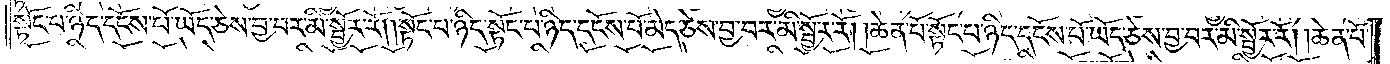སྟོང་པ་ཉིད་དངོས་པོ་ཡོད་ཅེས་བྱ་བར་མི་སྦྱོར་རོ། །སྟོང་པ་ཉིད་སྟོང་པ་ཉིད་དངོས་པོ་མེད་ཅེས་བྱ་བར་མི་སྦྱོར་རོ། །ཆེན་པོ་སྟོང་པ་ཉིད་དངོས་པོ་ཡོད་ཅེས་བྱ་བར་མི་སྦྱོར་རོ། །ཆེན་པོ་
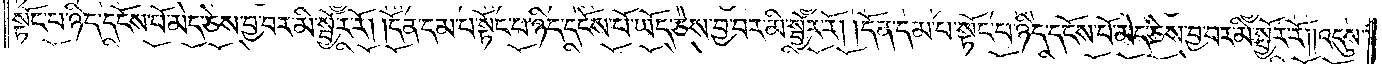སྟོང་པ་ཉིད་དངོས་པོ་མེད་ཅེས་བྱ་བར་མི་སྦྱོར་རོ། །དོན་དམ་པ་སྟོང་པ་ཉིད་དངོས་པོ་ཡོད་ཅེས་བྱ་བར་མི་སྦྱོར་རོ། །དོན་དམ་པ་སྟོང་པ་ཉིད་དངོས་པོ་མེད་ཅེས་བྱ་བར་མི་སྦྱོར་རོ། །འདུས་
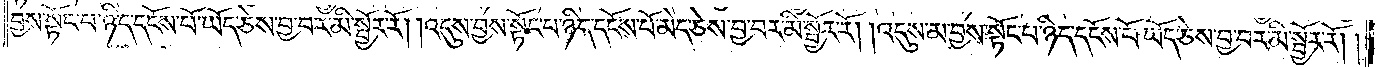བྱས་སྟོང་པ་ཉིད་དངོས་པོ་ཡོད་ཅེས་བྱ་བར་མི་སྦྱོར་རོ། །འདུས་བྱས་སྟོང་པ་ཉིད་དངོས་པོ་མེད་ཅེས་བྱ་བར་མི་སྦྱོར་རོ། །འདུས་མ་བྱས་སྟོང་པ་ཉིད་དངོས་པོ་ཡོད་ཅེས་བྱ་བར་མི་སྦྱོར་རོ། །
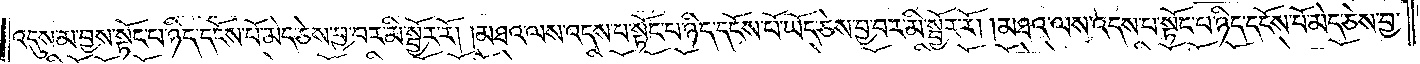འདུས་མ་བྱས་སྟོང་པ་ཉིད་དངོས་པོ་མེད་ཅེས་བྱ་བར་མི་སྦྱོར་རོ། །མཐའ་ལས་འདས་པ་སྟོང་པ་ཉིད་དངོས་པོ་ཡོད་ཅེས་བྱ་བར་མི་སྦྱོར་རོ། །མཐའ་ལས་འདས་པ་སྟོང་པ་ཉིད་དངོས་པོ་མེད་ཅེས་བྱ་
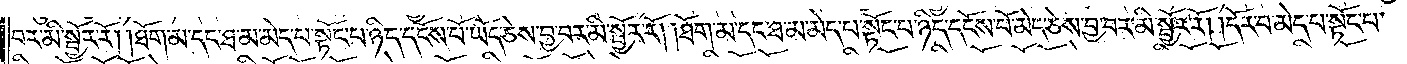བར་མི་སྦྱོར་རོ། །ཐོག་མ་དང་ཐ་མ་མེད་པ་སྟོང་པ་ཉིད་དངོས་པོ་ཡོད་ཅེས་བྱ་བར་མི་སྦྱོར་རོ། །ཐོག་མ་དང་ཐ་མ་མེད་པ་སྟོང་པ་ཉིད་དངོས་པོ་མེད་ཅེས་བྱ་བར་མི་སྦྱོར་རོ། །དོར་བ་མེད་པ་སྟོང་པ་
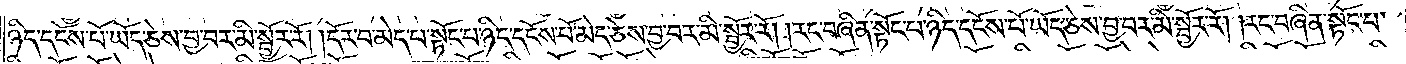ཉིད་དངོས་པོ་ཡོད་ཅེས་བྱ་བར་མི་སྦྱོར་རོ། །དོར་བ་མེད་པ་སྟོང་པ་ཉིད་དངོས་པོ་མེད་ཅེས་བྱ་བར་མི་སྦྱོར་རོ། །རང་བཞིན་སྟོང་པ་ཉིད་དངོས་པོ་ཡོད་ཅེས་བྱ་བར་མི་སྦྱོར་རོ། །རང་བཞིན་སྟོང་པ་
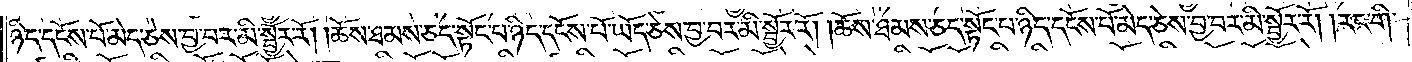ཉིད་དངོས་པོ་མེད་ཅེས་བྱ་བར་མི་སྦྱོར་རོ། །ཆོས་ཐམས་ཅད་སྟོང་པ་ཉིད་དངོས་པོ་ཡོད་ཅེས་བྱ་བར་མི་སྦྱོར་རོ། །ཆོས་ཐམས་ཅད་སྟོང་པ་ཉིད་དངོས་པོ་མེད་ཅེས་བྱ་བར་མི་སྦྱོར་རོ། །རང་གི་
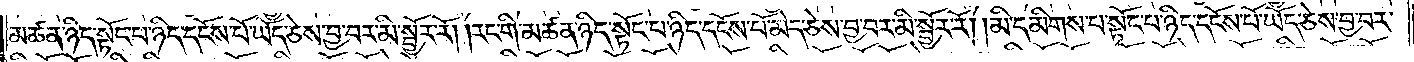མཚན་ཉིད་སྟོང་པ་ཉིད་དངོས་པོ་ཡོད་ཅེས་བྱ་བར་མི་སྦྱོར་རོ། །རང་གི་མཚན་ཉིད་སྟོང་པ་ཉིད་དངོས་པོ་མེད་ཅེས་བྱ་བར་མི་སྦྱོར་རོ། །མི་དམིགས་པ་སྟོང་པ་ཉིད་དངོས་པོ་ཡོད་ཅེས་བྱ་བར་
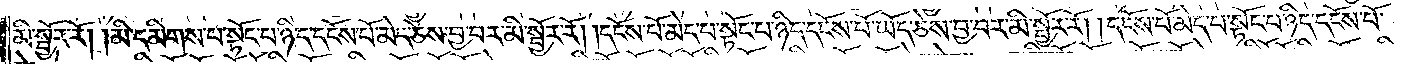མི་སྦྱོར་རོ། །མི་དམིགས་པ་སྟོང་པ་ཉིད་དངོས་པོ་མེད་ཅེས་བྱ་བར་མི་སྦྱོར་རོ། །དངོས་པོ་མེད་པ་སྟོང་པ་ཉིད་དངོས་པོ་ཡོད་ཅེས་བྱ་བར་མི་སྦྱོར་རོ། །དངོས་པོ་མེད་པ་སྟོང་པ་ཉིད་དངོས་པོ་
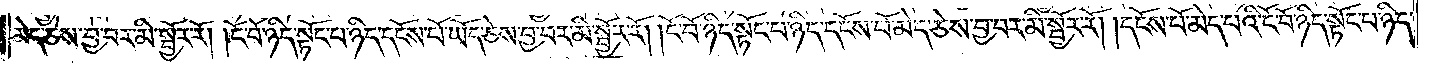མེད་ཅེས་བྱ་བར་མི་སྦྱོར་རོ། །ངོ་བོ་ཉིད་སྟོང་པ་ཉིད་དངོས་པོ་ཡོད་ཅེས་བྱ་བར་མི་སྦྱོར་རོ། །ངོ་བོ་ཉིད་སྟོང་པ་ཉིད་དངོས་པོ་མེད་ཅེས་བྱ་བར་མི་སྦྱོར་རོ། །དངོས་པོ་མེད་པའི་ངོ་བོ་ཉིད་སྟོང་པ་ཉིད་
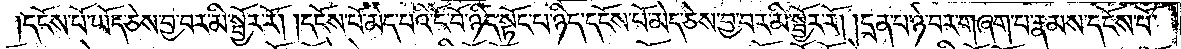དངོས་པོ་ཡོད་ཅེས་བྱ་བར་མི་སྦྱོར་རོ། །དངོས་པོ་མེད་པའི་ངོ་བོ་ཉིད་སྟོང་པ་ཉིད་དངོས་པོ་མེད་ཅེས་བྱ་བར་མི་སྦྱོར་རོ། །དྲན་པ་ཉེ་བར་གཞག་པ་རྣམས་དངོས་པོ་
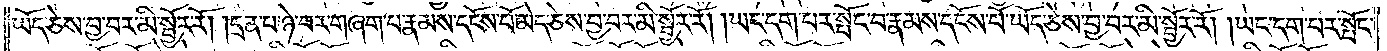ཡོད་ཅེས་བྱ་བར་མི་སྦྱོར་རོ། །དྲན་པ་ཉེ་བར་གཞག་པ་རྣམས་དངོས་པོ་མེད་ཅེས་བྱ་བར་མི་སྦྱོར་རོ། །ཡང་དག་པར་སྤོང་བ་རྣམས་དངོས་པོ་ཡོད་ཅེས་བྱ་བར་མི་སྦྱོར་རོ། །ཡང་དག་པར་སྤོང་
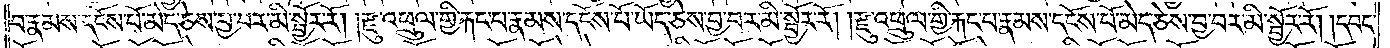བ་རྣམས་དངོས་པོ་མེད་ཅེས་བྱ་བར་མི་སྦྱོར་རོ། །རྫུ་འཕྲུལ་གྱི་རྐང་པ་རྣམས་དངོས་པོ་ཡོད་ཅེས་བྱ་བར་མི་སྦྱོར་རོ། །རྫུ་འཕྲུལ་གྱི་རྐང་པ་རྣམས་དངོས་པོ་མེད་ཅེས་བྱ་བར་མི་སྦྱོར་རོ། །དབང་
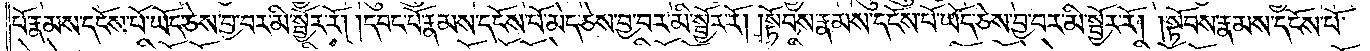པོ་རྣམས་དངོས་པོ་ཡོད་ཅེས་བྱ་བར་མི་སྦྱོར་རོ། །དབང་པོ་རྣམས་དངོས་པོ་མེད་ཅེས་བྱ་བར་མི་སྦྱོར་རོ། །སྟོབས་རྣམས་དངོས་པོ་ཡོད་ཅེས་བྱ་བར་མི་སྦྱོར་རོ། །སྟོབས་རྣམས་དངོས་པོ་
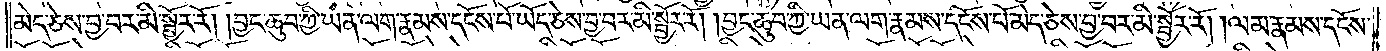མེད་ཅེས་བྱ་བར་མི་སྦྱོར་རོ། །བྱང་ཆུབ་ཀྱི་ཡན་ལག་རྣམས་དངོས་པོ་ཡོད་ཅེས་བྱ་བར་མི་སྦྱོར་རོ། །བྱང་ཆུབ་ཀྱི་ཡན་ལག་རྣམས་དངོས་པོ་མེད་ཅེས་བྱ་བར་མི་སྦྱོར་རོ། །ལམ་རྣམས་དངོས་
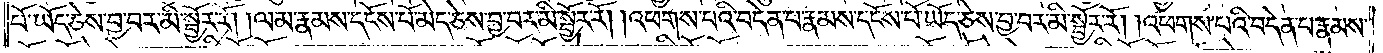པོ་ཡོད་ཅེས་བྱ་བར་མི་སྦྱོར་རོ། །ལམ་རྣམས་དངོས་པོ་མེད་ཅེས་བྱ་བར་མི་སྦྱོར་རོ། །འཕགས་པའི་བདེན་པ་རྣམས་དངོས་པོ་ཡོད་ཅེས་བྱ་བར་མི་སྦྱོར་རོ། །འཕགས་པའི་བདེན་པ་རྣམས་
